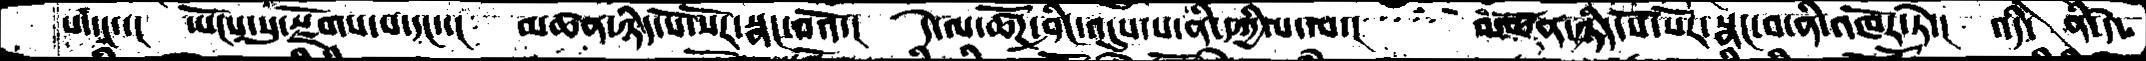པ་དང་་།  ཡོངས་སུ་སྫོགས་པ་དང་་།  མཚན་ཉིད་སོ་སོར་སྣང་བའོ་།  དེ་ལ་ཚོཌ་ཤིང་འདུས་པ་ནི་དཀྱིལ་ལ་།   མཚན་ཉིད་སོ་སོར་སྣང་བ་ནི་འཁོར་ཏེ་།  འདི་ ནི་དེ་
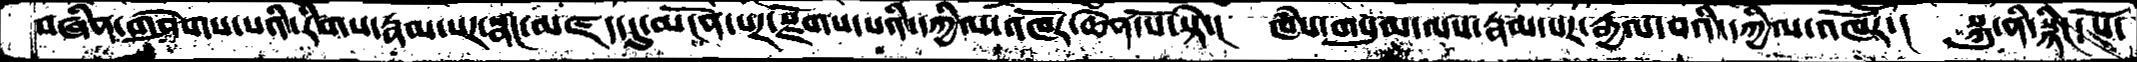བཞིན་གཤེགས་པའི་རིགས་རྣམ་པར་སྣང་མཛད་དུ་མངོན་པར་སྫོགས་པའི་དཀྱིལ་འཁོར་ཆེན་པོ་སྟེ་།  ཁཾས་གསུམ་ལས་རྣམ་པར་རྒྱལ་བའི་དཀྱིལ་འཁོར་།  སྐུ་ནི་སྙིང་པོ་
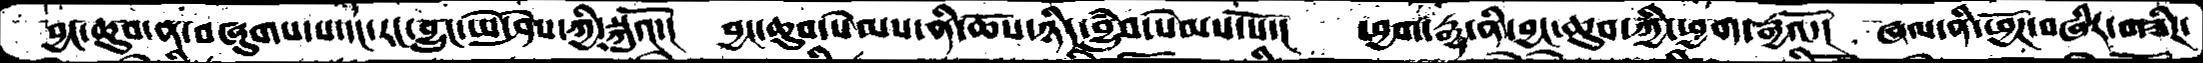བྱང་ཆུབ་ན་བཞུགས་པ་དང་རང་བྱུང་ཡེ་ཤེས་ཀྱི་སྐུའོ་།  བྱང་ཆུབ་སེམས་ནི་ཆོས་ཉིད་བྱུཾབ་སེམས་སོ་།  ཕྱག་རྒྱ་ནི་བྱང་ཆུབ་ཀྱི་ཕྱག་རྒྱའོ་།  ཞལ་ནི་ཕྱོཌ་བཞིར་གཟིཌ་
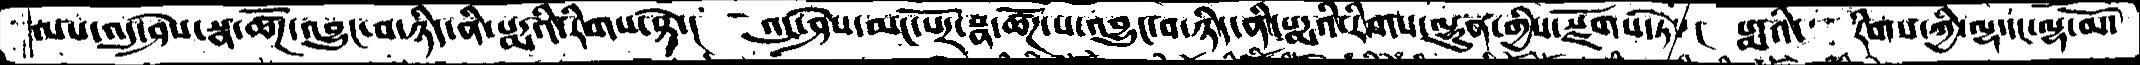ལས་འདུ་ཤེས་སྣ་ཚོཌ་འབྱུང་བ་ཉིད་ནི་པདྨའི་རིགས་སྟེ་།   འདུ་ཤེས་མང་པོར་སྣ་ཚོཌ་པ་འབྱུང་བ་ཉིད་ནི་པདྨའི་རིགས་ལྷུན་གྱིས་སྫོགས་ཏེ་།   པདྨའི་   རིགས་ཀྱྱི་ལྷ་དང་ལྷ་མོ་
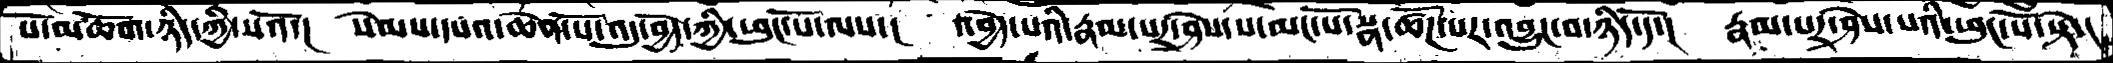སོ་མཆོག་ཉིད་ཀྱི་སའོ་།  སེམས་དཔའ་ཆེན་པོ་འདུ་བྱེད་ཀྱི་ཕུང་པོ་ལས་།  འབྱེད་པའི་རྣམ་པར་ཤེས་པ་མང་པོ་སྣ་ཚོཌ་པར་འབྱུང་བ་ཉིད་དོ་།   རྣམ་པར་ཤེས་པའི་ཕུང་པོ་སྟེ་།
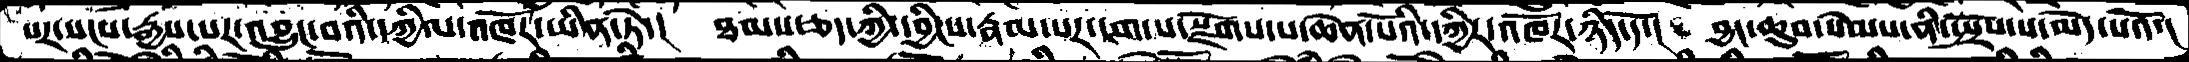པར་སངས་རྒྱས་པར་འབྱུང་བའི་དཀྱིལ་འཁོར་ཡིན་ཏེ་།   ཐམས་ཅད་ཀྱི་དབྱིངས་རྣམ་པར་དག་པ་སྫོགས་པ་ཆེན་པོའི་དཀྱིལ་འཁོར་ཉིད་དོ་།  བྱང་ཆུབ་སེམས་ནི་སྤྲོས་པ་མེད་པའོ་།
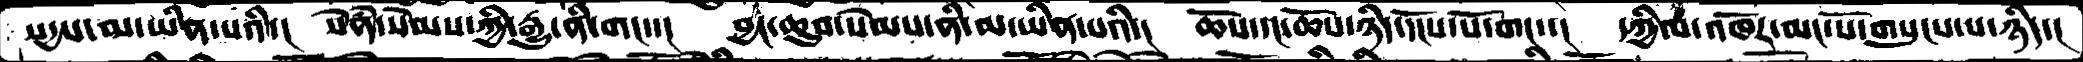སདྱས་མ་ཡིན་པའི་།  སེནཾ་སེམས་ཀྱི་རྒྱུ་ནི་གང་་།  བྱང་ཆུབ་སེམས་ནི་མ་ཡིན་པའི་།  ཆོས་དང་ཆོས་ཉིད་དངོས་པོ་གང་་།  དཀྱིལ་འཁོར་མང་པོ་གསུངས་པ་ཉིད་།
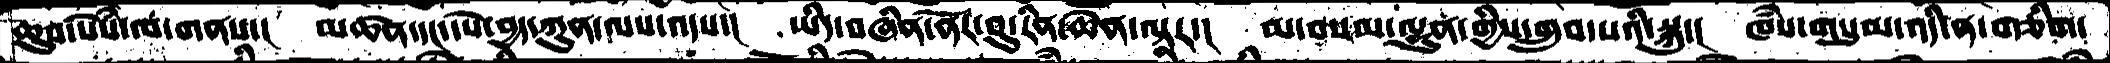ཆུབ་སེསཾ་ལ་གནས་།   མཚན་དང་དཔེེ་བྱད་ཀུན་ལས་འདས་།   ཡིད་བཞིན་ནོར་བུ་རིན་ཆེན་ལྟར་།   མ་བསམ་ལྷུན་གྱིས་གྲུབ་པའི་སྐུ་།   ཁཾས་གསུམ་འདི་ན་གཅིག་
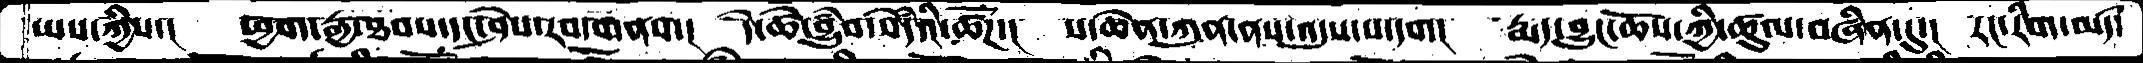ཡས་ཀྱིས་།   ཕྱག་རྒྱ་ཐབས་དང་ཤེས་རབ་གནས་།  དེ་ཚེ་བྱུཾབ་སེདཾའི་ཚོཌ་།   ས་ཆེན་ཀུན་ནས་འདུས་པ་དག།  རྨད་བྱུང་ཆོས་ཀྱི་ཚུལ་བཞིན་དུ་།   རང་རིག་མཛད་
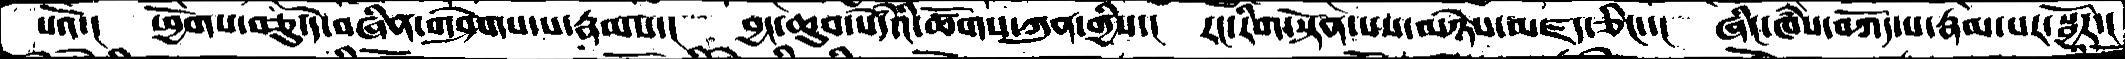པའོ་།  ཕྱོགས་བཅུ་དེ་བཞིན་གཤེགས་པ་རྣམས་།  བྱང་ཆུབ་སེདཾའི་ཚོགས་ཀུན་གྱིས་།  རང་རིག་སྟོན་པས་མཉེས་མཛད་ཅིང་་།  ཞིང་ཁཾས་བཀོད་པ་རྣམ་པར་སྦྱོར་།
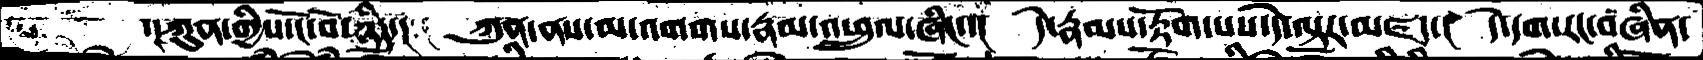་།ཀུན་གྱིས་ངོ་བོ་ཉིད་།   ཀུན་ནས་མ་འགགས་རྣམ་འཕྲུལ་ཞིང་་།  དེ་རྣམས་རྟོག་པས་དེ་ལྟར་མཛད་།  དེ་དག་རང་བཞིན་
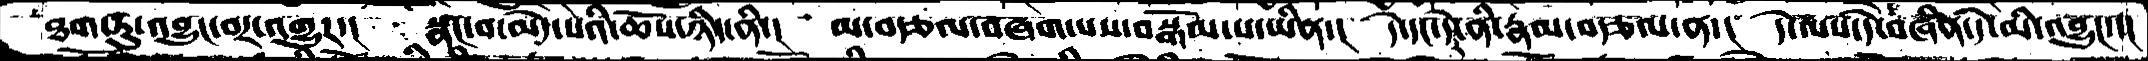ཐག་ཏུ་འབྱུང་བར་འགྱུར་།  སྣང་བ་མེད་པའི་ཆོས་ཉིད་ནི་།  མ་བརྩལ་བཞག་པས་བསྒོམ་པ་ཡིན་།  དེ་དང་དེར་ནི་རྣམ་བརྩལ་ན་།  དེ་ལས་དེ་བཞིན་དེ་མི་འབྱུང་་།
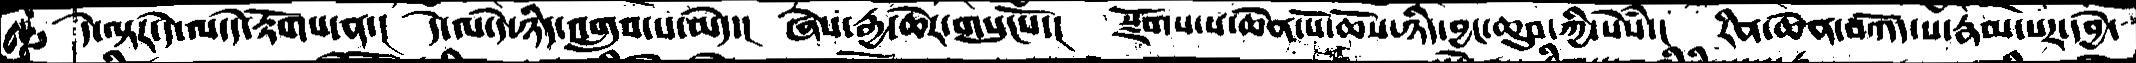དེ་ལྟར་དེ་ལ་དེ་རྟོགས་ན་།  དེ་ལ་དེ་ཉིད་འགྲུབ་པ་མེད་།  ཞེས་རྒྱ་ཆེར་གསུངསོ་།  སྫོགས་པ་ཆེན་པོ་ཆོས་ཉིད་བྱང་ཆུབ་ཀྱི་སེཾས་།  རིན་ཆེན་བཀོད་པ་རྣམ་པར་དབྱེ་
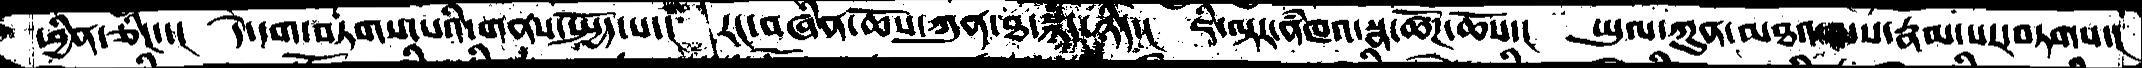ཕྱིན་ཅིང་་།  དེ་དག་བཏགས་པའི་གནས་སྤྱོད་པ་།   རང་བཞིན་ཆོས་ཀུན་ཐ་སྙད་ཉིད་།  ཇི་ལྟར་ནཾཁའ་སྣ་ཚོཌ་ཆོས་།  ཡུལ་ཀུན་མཐའ་ལས་རྣམ་པར་བཏགས་།
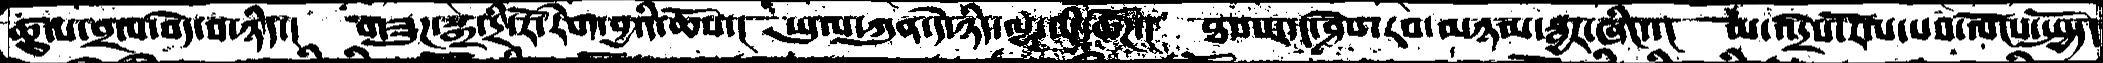ཚུལ་བྲལ་བདེ་བ་ཉིད་།  གཟུཌ་སྒྲ་དྲི་རོ་རེག་བྱའི་ཆོས་།  ཡུལ་ཀུན་དེ་ཉིད་ལྷ་ཡི་ཚོཌ་།  ཐབས་དང་ཤེས་རབ་མཉམ་སྦྱར་ཞིང་་།  མ་འདྲེས་རོལ་པས་ལོངས་སྤྱོད་
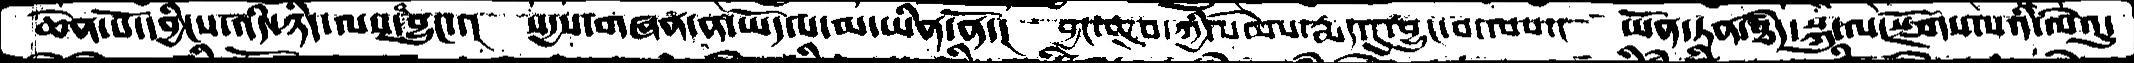ཆེན་པོ་དབྱིངས་འདི་ཉིད་ལས་འབྱུང་་།  སདྱས་གཞན་ན་ཡོད་པ་མ་ཡིན་ནོ་།  བྱང་ཆུབ་ཀྱི་སེམས་རྨད་དུ་བྱུང་བ་ལས་།  ཡོན་ཏན་ཐཾད་སྐུ་ལ་སྫོགས་པའི་ལེའུ་
